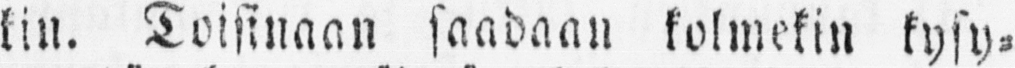kin. Toisinaan saadaan kolmekin kysy-
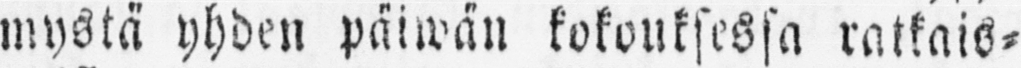mystä yhden päiwän kokouksessa ratkais-
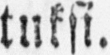tuksi.
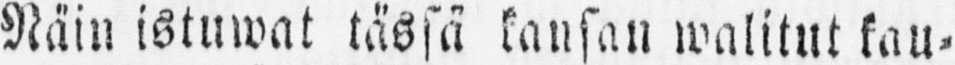Näin istuwat tässä kansan walitut kau-
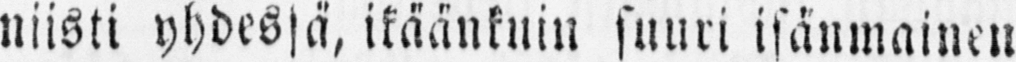niisti yhdessä, ikäänkuin suuri isänmainen
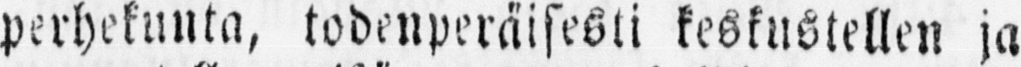perhekunta, todenperäisesti keskustellen ja
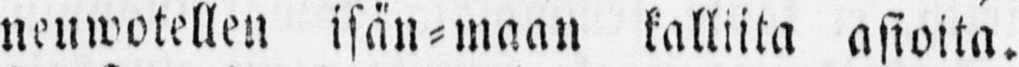neuwotellen isän-maan kalliita asioita.
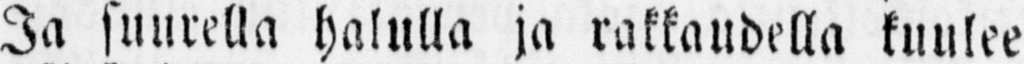Ja suurella halulla ja rakkaudella kuulee
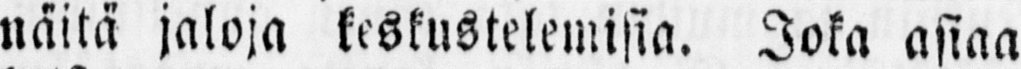näitä jaloja keskustelemisia. Joka asiaa
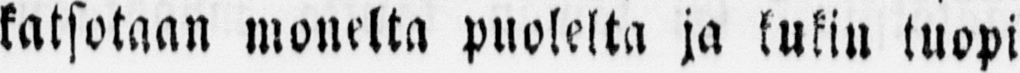katsotaan monelta puolelta ja kukin kuopi
